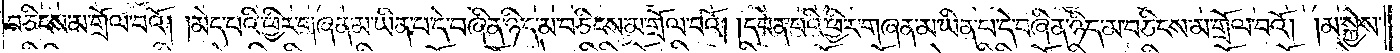བཅིངས་མ་གྲོལ་བའོ། །མེད་པའི་ཕྱིར་གཞན་མ་ཡིན་པ་དེ་བཞིན་ཉིད་མ་བཅིངས་མ་གྲོལ་བའོ། །དབེན་པའི་ཕྱིར་གཞན་མ་ཡིན་པ་དེ་བཞིན་ཉིད་མ་བཅིངས་མ་གྲོལ་བའོ། །མ་སྐྱེས་
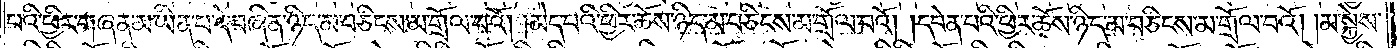པའི་ཕྱིར་གཞན་མ་ཡིན་པ་དེ་བཞིན་ཉིད་མ་བཅིངས་མ་གྲོལ་བའོ། །མེད་པའི་ཕྱིར་ཆོས་ཉིད་མ་བཅིངས་མ་གྲོལ་བའོ། །དབེན་པའི་ཕྱིར་ཆོས་ཉིད་མ་བཅིངས་མ་གྲོལ་བའོ། །མ་སྐྱེས་
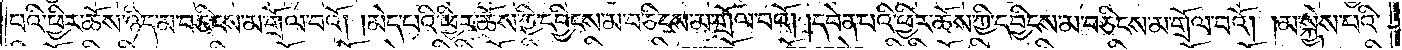པའི་ཕྱིར་ཆོས་ཉིད་མ་བཅིངས་མ་གྲོལ་བའོ། །མེད་པའི་ཕྱིར་ཆོས་ཀྱི་དབྱིངས་མ་བཅིངས་མ་གྲོལ་བའོ། །དབེན་པའི་ཕྱིར་ཆོས་ཀྱི་དབྱིངས་མ་བཅིངས་མ་གྲོལ་བའོ། །མ་སྐྱེས་པའི་
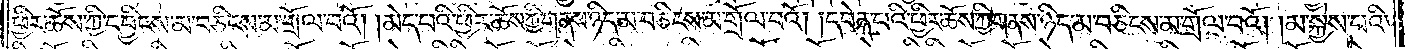ཕྱིར་ཆོས་ཀྱི་དབྱིངས་མ་བཅིངས་མ་གྲོལ་བའོ། །མེད་པའི་ཕྱིར་ཆོས་ཀྱི་གནས་ཉིད་མ་བཅིངས་མ་གྲོལ་པའོ། །དབེན་པའི་ཕྱིར་ཆོས་ཀྱི་གནས་ཉིད་མ་བཅིངས་མ་གྲོལ་བའོ། །མ་སྐྱེས་པའི་
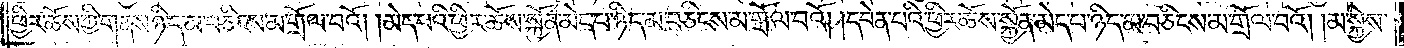ཕྱིར་ཆོས་ཀྱི་གནས་ཉིད་མ་བཅིངས་མ་གྲོལ་བའོ། །མེད་པའི་ཕྱིར་ཆོས་སྐྱོན་མེད་པ་ཉིད་མ་བཅིངས་མ་གྲོལ་བའོ། །དབེན་པའི་ཕྱིར་ཆོས་སྐྱོན་མེད་པ་ཉིད་མ་བཅིངས་མ་གྲོལ་བའོ། །མ་སྐྱེས་
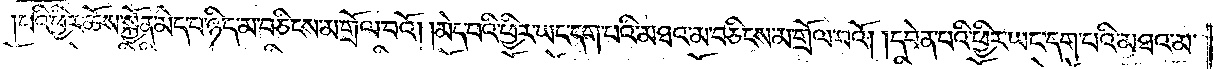པའི་ཕྱིར་ཆོས་སྐྱོན་མེད་པ་ཉིད་མ་བཅིངས་མ་གྲོལ་བའོ། །མེད་པའི་ཕྱིར་ཡང་དག་པའི་མཐའ་མ་བཅིངས་མ་གྲོལ་བའོ། །དབེན་པའི་ཕྱིར་ཡང་དག་པའི་མཐའ་མ་
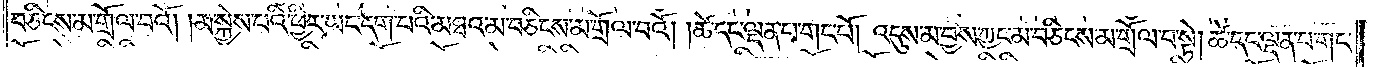བཅིངས་མ་གྲོལ་བའོ། མ་སྐྱེས་པའི་ཕྱིར་ཡང་དག་པའི་མཐའ་མ་བཅིངས་མ་གྲོལ་བའོ། །ཚེ་དང་ལྡན་པ་གང་པོ། འདུས་མ་བྱས་ཀྱང་མ་བཅིངས་མ་གྲོལ་བ་སྟེ། །ཚེ་དང་ལྡན་པ་གང་
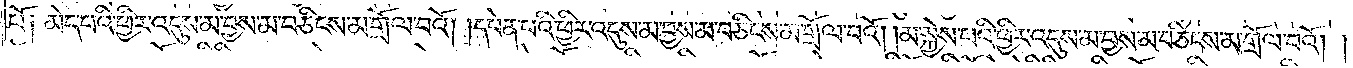པོ༑ མེད་པའི་ཕྱིར་འདུས་མ་བྱས་མ་བཅིངས་མ་གྲོལ་བའོ། །དབེན་པའི་ཕྱིར་འདུས་མ་བྱས་མ་བཅིངས་མ་གྲོལ་བའོ། །མ་སྐྱེས་པའི་ཕྱིར་འདུས་མ་བྱས་མ་བཅིངས་མ་གྲོལ་བའོ། །
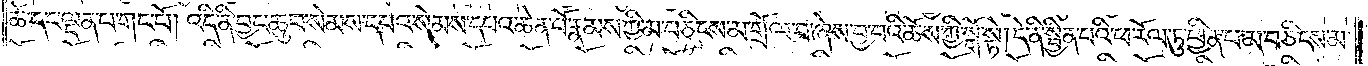ཚེ་དང་ལྡན་པ་གང་པོ། འདི་ནི་བྱང་ཆུབ་སེམས་དཔའ་སེམས་དཔའ་ཆེན་པོ་རྣམས་ཀྱི་མ་བཅིངས་མ་གྲོལ་བ་ཞེས་བྱ་བའི་ཆོས་ཀྱི་སྒོ་སྟེ། དེ་ནི་སྦྱིན་པའི་ཕ་རོལ་ཏུ་ཕྱིན་པ་མ་བཅིངས་མ་
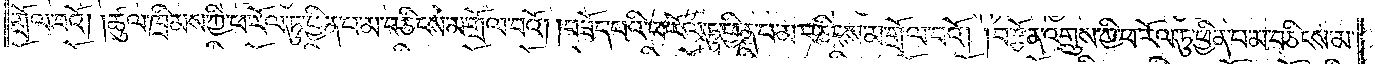གྲོལ་བའོ། །ཚུལ་ཁྲིམས་ཀྱི་ཕ་རོལ་ཏུ་ཕྱིན་པ་མ་བཅིངས་མ་གྲོལ་བའོ། །བཟོད་པའི་ཕ་རོལ་ཏུ་ཕྱིན་པ་མ་བཅིངས་མ་གྲོལ་བའོ། །བརྩོན་འགྲུས་ཀྱི་ཕ་རོལ་ཏུ་ཕྱིན་པ་མ་བཅིངས་མ་
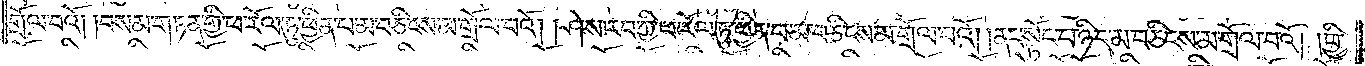གྲོལ་བའོ། །བསམ་གཏན་གྱི་ཕ་རོལ་ཏུ་ཕྱིན་པ་མ་བཅིངས་མ་གྲོལ་བའོ། །ཤེས་རབ་ཀྱི་ཕ་རོལ་ཏུ་ཕྱིན་པ་མ་བཅིངས་མ་གྲོལ་བའོ། །ནང་སྟོང་པ་ཉིད་མ་བཅིངས་མ་གྲོལ་བའོ། །ཕྱི་
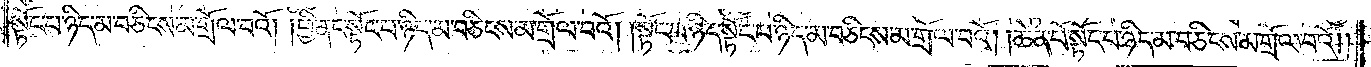སྟོང་པ་ཉིད་མ་བཅིངས་མ་གྲོལ་བའོ། །ཕྱི་ནང་སྟོང་པ་ཉིད་མ་བཅིངས་མ་གྲོལ་བའོ། །སྟོང་པ་ཉིད་སྟོང་པ་ཉིད་མ་བཅིངས་མ་གྲོལ་བའོ། །ཆེན་པོ་སྟོང་པ་ཉིད་མ་བཅིངས་མ་གྲོལ་བའོ། །
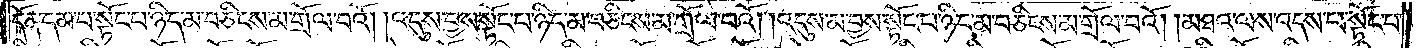དོན་དམ་པ་སྟོང་པ་ཉིད་མ་བཅིངས་མ་གྲོལ་བའོ། །འདུས་བྱས་སྟོང་པ་ཉིད་མ་བཅིངས་མ་གྲོལ་བའོ། །འདུས་མ་བྱས་སྟོང་པ་ཉིད་མ་བཅིངས་མ་གྲོལ་བའོ། །མཐའ་ལས་འདས་པ་སྟོང་པ་
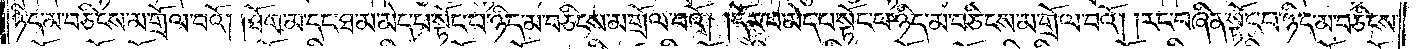ཉིད་མ་བཅིངས་མ་གྲོལ་བའོ། །ཐོག་མ་དང་ཐ་མ་མེད་པ་སྟོང་པ་ཉིད་མ་བཅིངས་མ་གྲོལ་བའོ། །དོར་བ་མེད་པ་སྟོང་པ་ཉིད་མ་བཅིངས་མ་གྲོལ་བའོ། །རང་བཞིན་སྟོང་པ་ཉིད་མ་བཅིངས་
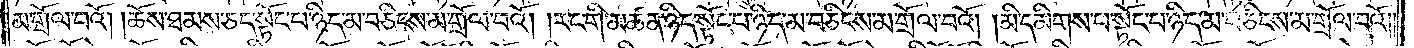མ་གྲོལ་བའོ། །ཆོས་ཐམས་ཅད་སྟོང་པ་ཉིད་མ་བཅིངས་མ་གྲོལ་བའོ། །རང་གི་མཚན་ཉིད་སྟོང་པ་ཉིད་མ་བཅིངས་མ་གྲོལ་བའོ། །མི་དམིགས་པ་སྟོང་པ་ཉིད་མ་བཅིངས་མ་གྲོལ་བའོ། །
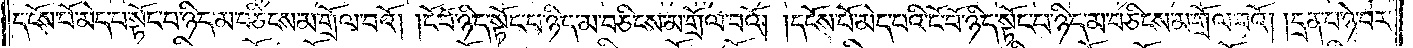དངོས་པོ་མེད་པ་སྟོང་པ་ཉིད་མ་བཅིངས་མ་གྲོལ་བའོ། །ངོ་བོ་ཉིད་སྟོང་པ་ཉིད་མ་བཅིངས་མ་གྲོལ་བའོ། །དངོས་པོ་མེད་པའི་ངོ་བོ་ཉིད་སྟོང་པ་ཉིད་མ་བཅིངས་མ་གྲོལ་བའོ། །དྲན་པ་ཉེ་བར་
